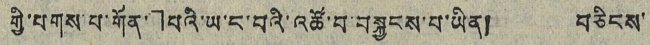གྱི་པགས་པ་གོན་」པའི་ཡ་ང་བའི་འཚོ་བ་བསྐྱངས་པ་ཡིན། བཅིངས་
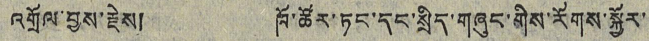འགྲོལ་བྱས་རྗེས། ཁོ་ཚོར་ཏང་དང་སྲིད་གཞུང་གིས་རོགས་སྐྱོར་
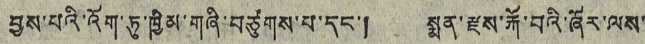བྱས་པའི་འོག་ཏུ་ཁྱིམ་གཞི་བཙུགས་པ་དང་། སྨན་རྫས་རྐོ་བའི་ཞོར་ལས་
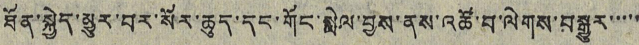ཐོན་སྐྱེད་མྱུར་བར་སོར་ཆུད་དང་གོང་སྤེལ་བྱས་ནས་འཚོ་བ་ལེགས་བསྒྱུར་་་་་
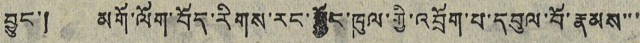བྱུང་། མགོ་ལོག་བོད་རིགས་རང་སྐྱོང་ཁུལ་གྱི་འབྲོག་པ་དབུལ་བོ་རྣམས་་་
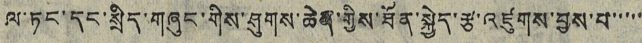ལ་ཏང་དང་སྲིད་གཞུང་གིས་ཤུགས་ཆེན་གྱིས་ཐོན་སྐྱེད་རྩ་འཛུགས་བྱས་པ་་་་་
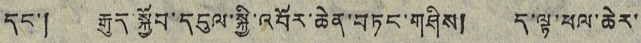དང་། རྒུད་སྐྱོབ་དངུལ་སྐྱི་འབོར་ཆེན་བཏང་གཤིས། ད་ལྟ་ཕལ་ཆེར་
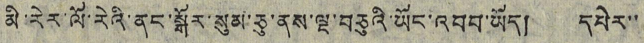མི་རེར་ལོ་རེའི་ནང་སྒོར་སུམ་ཅུ་ནས་ལྔ་བཅུའི་ཡོང་འབབ་ཡོད། དཔེར་་
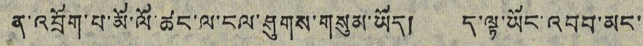ན་འབྲོག་པ་མོ་ལོ་ཚང་ལ་ངལ་ཤུགས་གསུམ་ཡོད། ད་ལྟ་ཡོང་འབབ་མང་
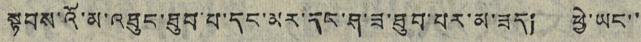སྟབས་འོ་མ་འཐུང་ཐུབ་པ་དང་མར་དང་ཤ་ཟ་ཐུབ་པར་མ་ཟད། ཕྱེ་ཡང་་
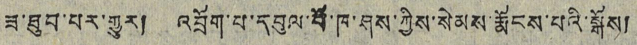ཟ་ཐུབ་པར་གྱུར། འབྲོག་པ་དབུལ་པོ་ཁ་ཤས་ཀྱིས་སེམས་རྨོངས་པའི་སྒོས།
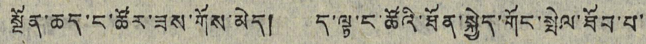སྔོན་ཆད་ང་ཚོར་ཟས་གོས་མེད། ད་ལྟ་ང་ཚོའི་ཐོན་སྐྱེད་གོང་སྤེལ་ཐོབ་པ་
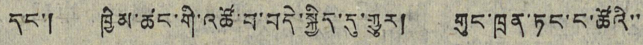དང་། ཁྱིམ་ཚང་གི་འཚོ་བ་བདེ་སྐྱིད་དུ་གྱུར། གུང་ཁྲན་ཏང་ང་ཚོའི་་
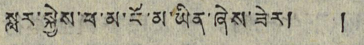སླར་སྐྱེས་ཕ་མ་ངོ་མ་ཡིན་ཞེས་ཟེར། །
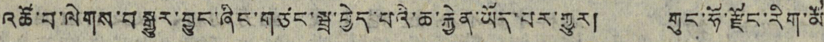འཚོ་བ་ལེགས་བསྒྱུར་བྱུང་ཞིང་གཙང་སྦྲ་བྱེད་པའི་ཆ་རྐྱེན་ཡོད་པར་གྱུར། གུང་ཧོ་རྫོང་རིག་མོ་
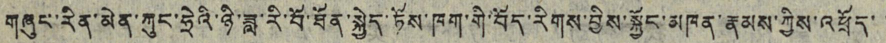གཞུང་རིན་མེན་ཀུང་ཧྲེའི་ཉི་ཟླ་རི་བོ་ཐོན་སྐྱེད་ཏོས་ཁག་གི་བོད་རིགས་བྱིས་སྐྱོང་མཁན་རྣམས་ཀྱིས་འཕྲོད་་
